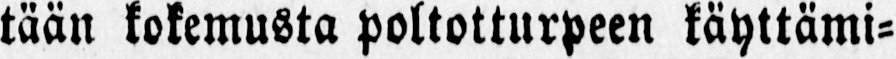tään kokemusta poltotturpeen käyttämi-
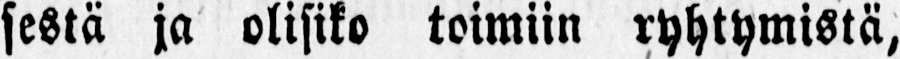sestä ja olisiko toimiin ryhtymistä,
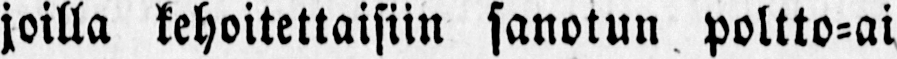joilla kehoitettaisiin sanotun poltto-ai
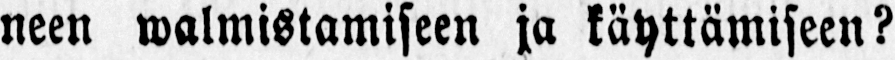neen walmistamiseen ja käyttämiseen?
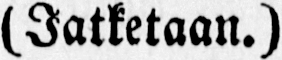(Jatketaan.)
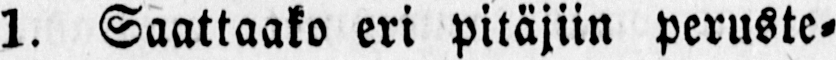1. Saattaako eri pitäjiin peruste-
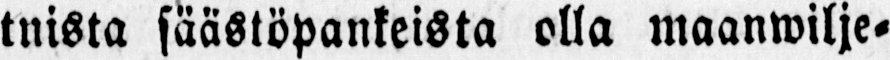tuista säästöpankeista olla maanwilje-
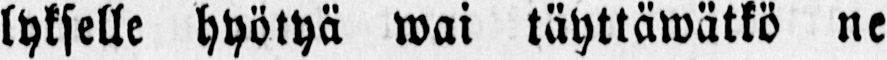lykselle hyötyä wai täyttäwätkö ne
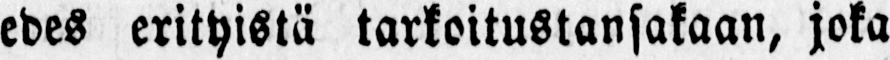edes erityistä tarkoitustansakaan, joka
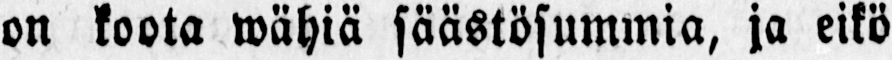on koota wähiä säästösummia, ja eikö
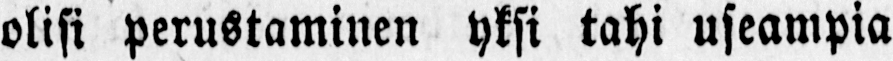olisi perustaminen yksi tahi useampia
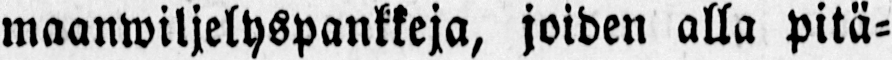maanwiljelyspankkeja, joiden alla pitä-
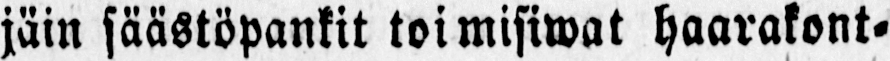jäin säästöpankit toimisiwat haarakont-
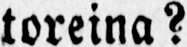toreina?
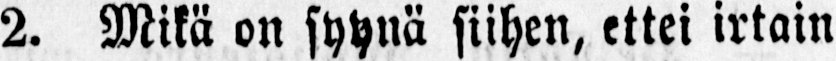2. Mikä on syynä siihen, ettei irtain
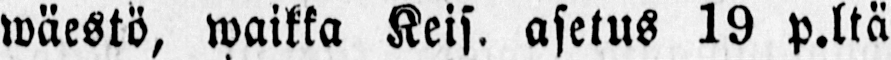wäestö, waikka Keis. asetus 19 p.ltä
